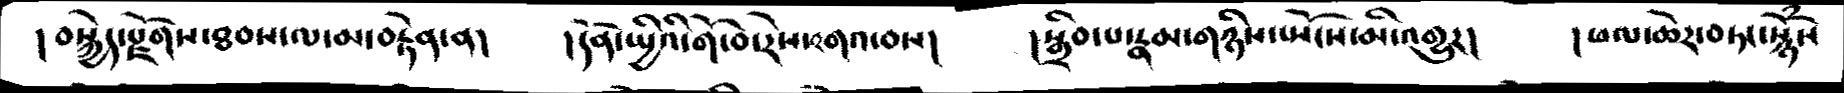། བསྐྱེད་རྫོགས་ཐབས་ལ་མ་བརྟེན་ན།   །དོན་སྤྱིའི་གོ་བ་རེས་འགའ་བས།   །སྒྲིབ་པ་རྣམ་གཉིས་ཡོངས་མི་འགྱུར།   །ཕལ་ཆེར་བཏང་སྙོཾས
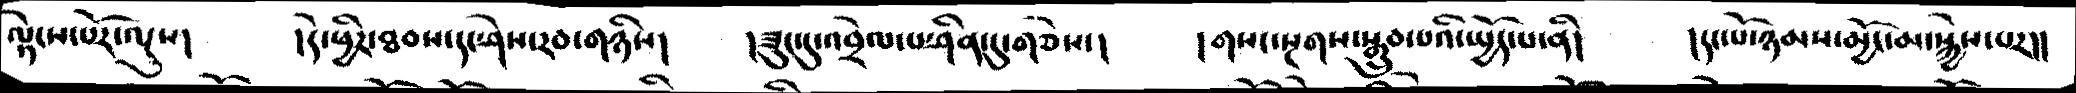ལྡེངས་པོར་ལུས།     །དེ་ཕྱིར་ཐབས་དང་ཤེས་རབ་གཉིས།  །ཟུང་དུ་འབྲེལ་པ་ཤིན་དུ་གཅེས་།   །གསང་སྔགས་སྒྲུབ་པའི་སྤྱོད་པ་ནི།   །དང་པོ་ཉམས་མྱོང་མ་སྐྱེས་པར།།
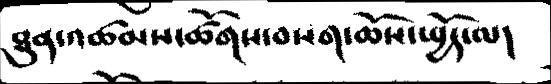ཐུན་འཚམས་ཚོགས་བསག་ཆོས་སྤྱོད་ལ།
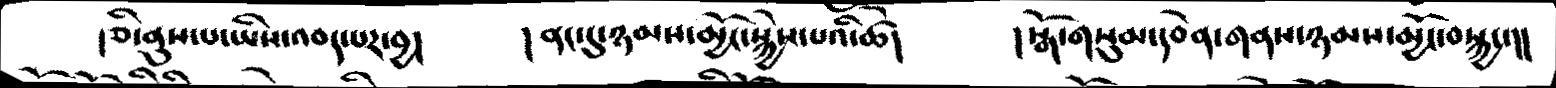།ཅི་ནུས་པ་ཡིས་འབད་པར་བྱ།      །ནང་དུ་ཉམས་མྱོང་སྐྱེས་པའི་ཚེ།    ། སྒོ་གསུམ་དབེན་གནས་ཉམས་མྱོང་བསྐྱང་།།
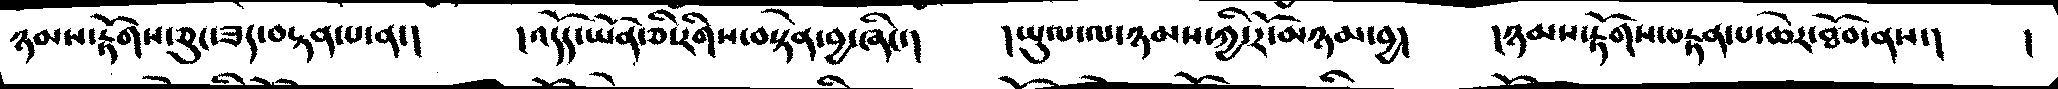ཉམས་རྟོགས་ཅུང་ཟད་བསྟན་པ་ན་།    །འདོད་ཡོན་ཅི་རིགས་བསྟེན་བྱ་ཞིང་།   །ཡུལ་ལ་ཉམས་ཀྱི་རོ་མཉམ་བྱ།   །ཉམས་རྟོགས་བརྟན་པ་ཆེར་ཐོབ་ནས་།   །
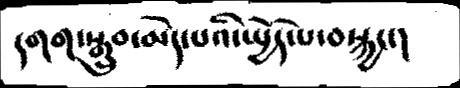དགག་སྒྲུབ་མེད་པའི་སྤྱོད་པ་བསྐྱང་།
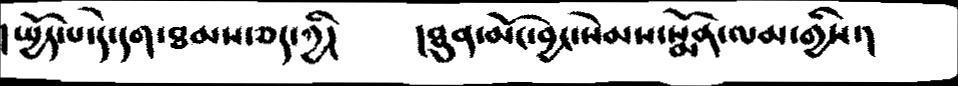། སྤྱོད་པ་དེ་དག་ཐམས་ཅད་ཀྱི།      །ཐུན་མོང་བྱང་སེམས་སྨོན་ལམ་གྱིས་།
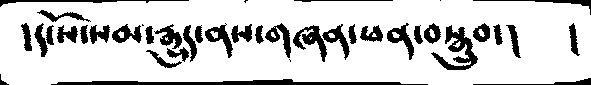།དངོས་སམ་རྒྱུད་ནས་གཞན་ཕན་བསྒྲུབ་།      །
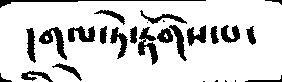།གལ་ཏེ་རྟོགས་པ་
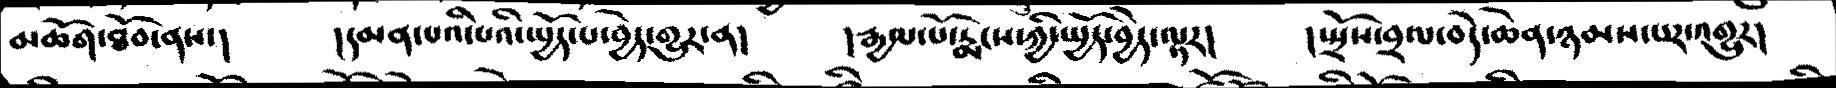མཆོག་ཐོབ་ནས་།    །དམན་པའི་པའི་སྤྱོད་པ་བྱེད་གྱུར་ན།   །རྒྱལ་པོ་རྨངས་ཀྱི་སྤྱོད་བྱེད་ལྟར།   །སྤྲོས་བྲལ་བདེ་ཆེན་ཉམས་པར་འགྱུར།
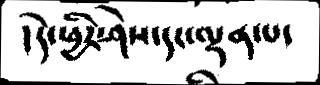།དེ་ཕྱིར་ཤེས་དང་ལྡན་པ་
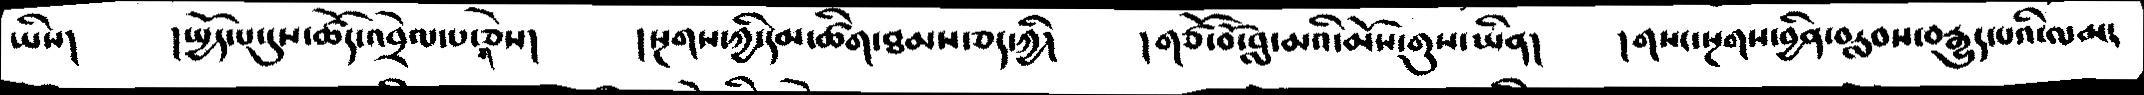ཡིས།   །སྤྱོད་པ་དུས་ཚོད་འབྲེལ་པ་གཅེས།   །སྔགས་ཀྱི་དམ་ཚིག་ཐམས་ཅད་ཀྱི།   །གཙོ་བོ་བླ་མའི་མོས་གུས་ཡིན།   །གསང་སྔགས་བྱིན་བརླབས་བརྒྱུད་པའི་ལམ།
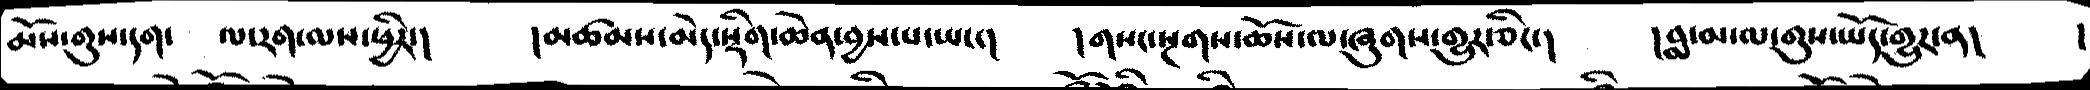མོས་གུས་དག་   ལ་རག་ལས་ཕྱིར།   །མཚམས་མེད་སྡིག་ཆེན་བྱས་པ་ཡང་།   །གསང་སྔགས་ཆོས་ལ་ཞུགས་གྱུར་ཅིང་།   །བླ་མ་ལ་གུས་ཡོད་གྱུར་ན།   །
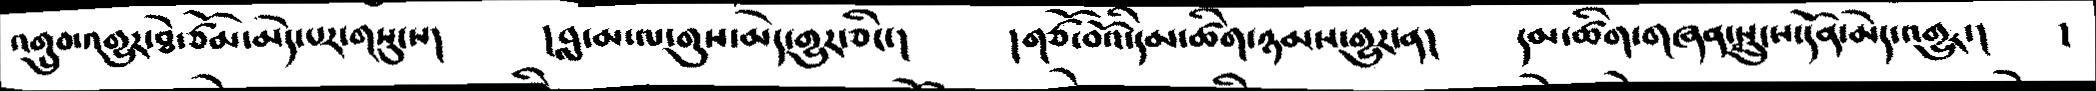འགྲུབ་འགྱུར་ཐེ་ཙོམ་མེད་པར་གསུངས།   །བླ་མ་ལ་གུས་མེད་གྱུར་ཅིང་།   །གཙོ་བོའི་དམ་ཚིག་ཉམས་གྱུར་ན།   དམ་ཚིག་གཞན་སྲུངས་དོན་མེད་འགྱུར་།   །
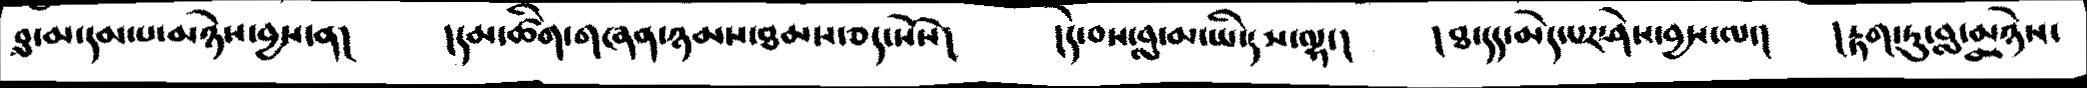བླ་མ་དམ་པ་མཉེས་བྱས་ན།   །དམ་ཚིག་གཞན་ཉམས་ཐམས་ཅད་སོས།   །དེ་བས་བླ་མ་ཡི་དམ་ལྷ་།   །ཐ་དད་མེད་པར་ཤེས་བྱས་ལ་།   །རྟག་ཏུ་བླ་མཉེས་
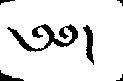༄༅།
